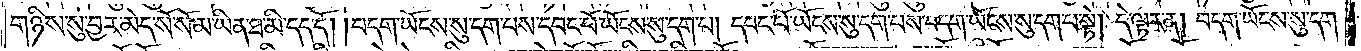གཉིས་སུ་བྱར་མེད་སོ་སོ་མ་ཡིན་ཐ་མི་དད་དོ། །བདག་ཡོངས་སུ་དག་པས་དབང་པོ་ཡོངས་སུ་དག་པ། དབང་པོ་ཡོངས་སུ་དག་པས་བདག་ཡོངས་སུ་དག་པ་སྟེ། དེ་ལྟར་ན། བདག་ཡོངས་སུ་དག་
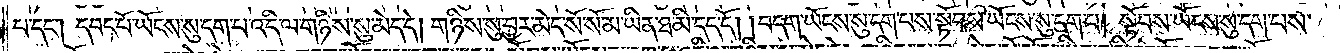པ་དང༌། དབང་པོ་ཡོངས་སུ་དག་པ་འདི་ལ་གཉིས་སུ་མེད་དེ། གཉིས་སུ་བྱར་མེད་སོ་སོ་མ་ཡིན་ཐ་མི་དད་དོ། །བདག་ཡོངས་སུ་དག་པས་སྟོབས་ཡོངས་སུ་དག་པ། སྟོབས་ཡོངས་སུ་དག་པས་
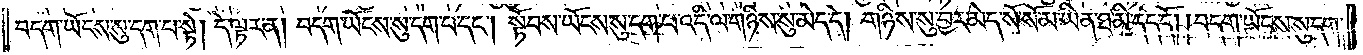བདག་ཡོངས་སུ་དག་པ་སྟེ། དེ་ལྟར་ན། བདག་ཡོངས་སུ་དག་པ་དང༌། སྟོབས་ཡོངས་སུ་དག་པ་འདི་ལ་གཉིས་སུ་མེད་དེ། གཉིས་སུ་བྱར་མེད་སོ་སོ་མ་ཡིན་ཐ་མི་དད་དོ། །བདག་ཡོངས་སུ་དག་
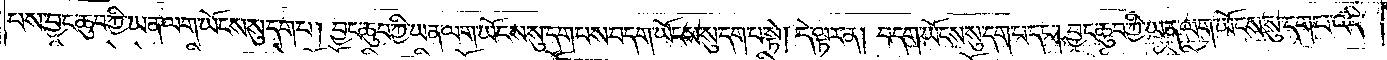པས་བྱང་ཆུབ་ཀྱི་ཡན་ལག་ཡོངས་སུ་དག་པ། བྱང་ཆུབ་ཀྱི་ཡན་ལག་ཡོངས་སུ་དག་པས་བདག་ཡོངས་སུ་དག་པ་སྟེ། དེ་ལྟར་ན། བདག་ཡོངས་སུ་དག་པ་དང༌། བྱང་ཆུབ་ཀྱི་ཡན་ལག་ཡོངས་སུ་དག་པ་འདི་
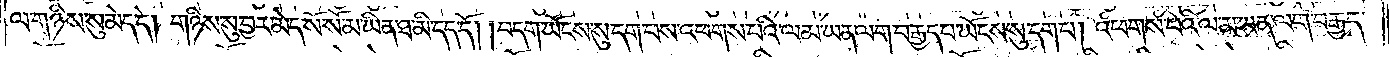ལ་གཉིས་སུ་མེད་དེ། གཉིས་སུ་བྱར་མེད་སོ་སོ་མ་ཡིན་ཐ་མི་དད་དོ། །བདག་ཡོངས་སུ་དག་པས་འཕགས་པའི་ལམ་ཡན་ལག་བརྒྱད་པ་ཡོངས་སུ་དག་པ། འཕགས་པའི་ལམ་ཡན་ལག་བརྒྱད་
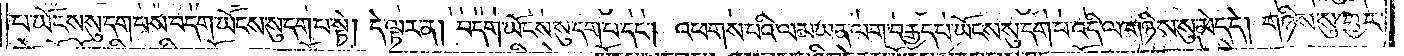པ་ཡོངས་སུ་དག་པས་བདག་ཡོངས་སུ་དག་པ་སྟེ། དེ་ལྟར་ན། བདག་ཡོངས་སུ་དག་པ་དང༌། འཕགས་པའི་ལམ་ཡན་ལག་བརྒྱད་པ་ཡོངས་སུ་དག་པ་འདི་ལ་གཉིས་སུ་མེད་དེ། གཉིས་སུ་བྱར་
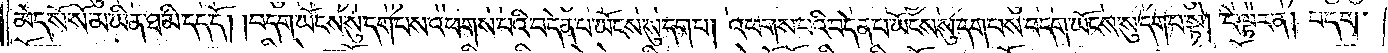མེད་སོ་སོ་མ་ཡིན་ཐ་མི་དད་དོ། །བདག་ཡོངས་སུ་དག་པས་འཕགས་པའི་བདེན་པ་ཡོངས་སུ་དག་པ། འཕགས་པའི་བདེན་པ་ཡོངས་སུ་དག་པས་བདག་ཡོངས་སུ་དག་པ་སྟེ། དེ་ལྟར་ན། བདག་
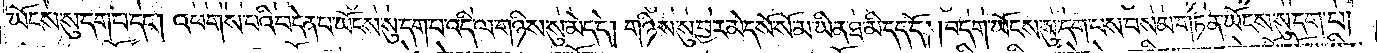ཡོངས་སུ་དག་པ་དང༌། འཕགས་པའི་བདེན་པ་ཡོངས་སུ་དག་པ་འདི་ལ་གཉིས་སུ་མེད་དེ། གཉིས་སུ་བྱར་མེད་སོ་སོ་མ་ཡིན་ཐ་མི་དད་དོ། །བདག་ཡོངས་སུ་དག་པས་བསམ་གཏན་ཡོངས་སུ་དག་པ།
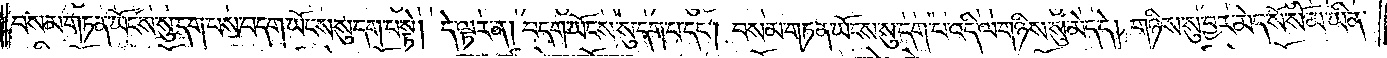བསམ་གཏན་ཡོངས་སུ་དག་པས་བདག་ཡོངས་སུ་དག་པ་སྟེ། དེ་ལྟར་ན། བདག་ཡོངས་སུ་དག་པ་དང༌། བསམ་གཏན་ཡོངས་སུ་དག་པ་འདི་ལ་གཉིས་སུ་མེད་དེ། གཉིས་སུ་བྱར་མེད་སོ་སོ་མ་ཡིན་
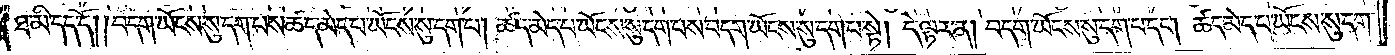ཐ་མི་དད་དོ། །བདག་ཡོངས་སུ་དག་པས་ཚད་མེད་པ་ཡོངས་སུ་དག་པ། ཚད་མེད་པ་ཡོངས་སུ་དག་པས་བདག་ཡོངས་སུ་དག་པ་སྟེ། དེ་ལྟར་ན། བདག་ཡོངས་སུ་དག་པ་དང༌། ཚད་མེད་པ་ཡོངས་སུ་དག་
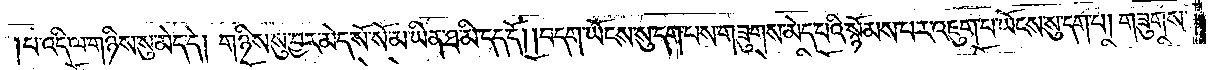པ་འདི་ལ་གཉིས་སུ་མེད་དེ། གཉིས་སུ་བྱར་མེད་སོ་སོ་མ་ཡིན་པ་ཐ་མི་དད་དོ། །བདག་ཡོངས་སུ་དག་པས་གཟུགས་མེད་པའི་སྙོམས་པར་འཇུག་པ་ཡོངས་སུ་དག་པ། གཟུགས་
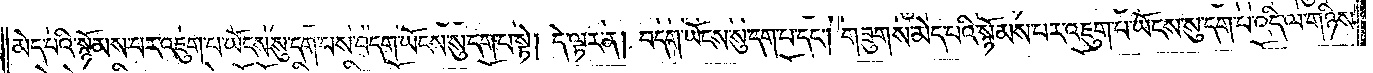མེད་པའི་སྙོམས་པར་འཇུག་པ་ཡོངས་སུ་དག་པས་བདག་ཡོངས་སུ་དག་པ་སྟེ། དེ་ལྟར་ན། བདག་ཡོངས་སུ་དག་པ་དང༌། གཟུགས་མེད་པའི་སྙོམས་པར་འཇུག་པ་ཡོངས་སུ་དག་པ་འདི་ལ་གཉིས་
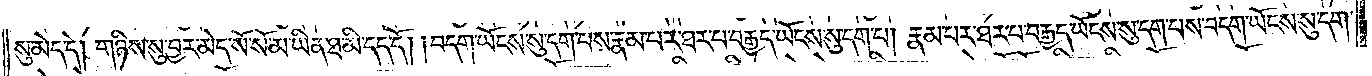སུ་མེད་དེ། གཉིས་སུ་བྱར་མེད་སོ་སོ་མ་ཡིན་ཐ་མི་དད་དོ། །བདག་ཡོངས་སུ་དག་པས་རྣམ་པར་ཐར་པ་བརྒྱད་ཡོངས་སུ་དག་པ། རྣམ་པར་ཐར་པ་བརྒྱད་ཡོངས་སུ་དག་པས་བདག་ཡོངས་སུ་དག་
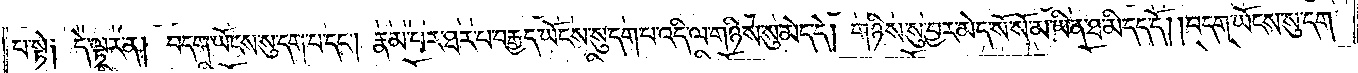པ་སྟེ༑ དེ་ལྟར་ན། བདག་ཡོངས་སུ་དག་པ་དང༌། རྣམ་པར་ཐར་པ་བརྒྱད་ཡོངས་སུ་དག་པ་འདི་ལ་གཉིས་སུ་མེད་དེ། གཉིས་སུ་བྱར་མེད་སོ་སོ་མ་ཡིན་ཐ་མི་དད་དོ། །བདག་ཡོངས་སུ་དག་
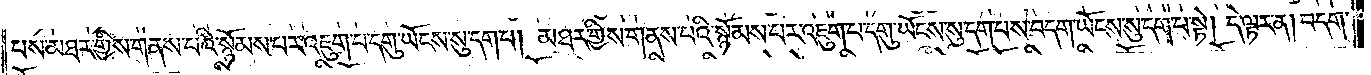པས་མཐར་གྱིས་གནས་པའི་སྙོམས་པར་འཇུག་པ་དགུ་ཡོངས་སུ་དག་པ། མཐར་གྱིས་གནས་པའི་སྙོམས་པར་འཇུག་པ་དགུ་ཡོངས་སུ་དག་པས་བདག་ཡོངས་སུ་དག་པ་སྟེ། དེ་ལྟར་ན། བདག་
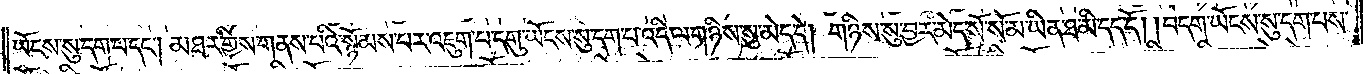ཡོངས་སུ་དག་པ་དང༌། མཐར་གྱིས་གནས་པའི་སྙོམས་པར་འཇུག་པ་དགུ་ཡོངས་སུ་དག་པ་འདི་ལ་གཉིས་སུ་མེད་དེ། གཉིས་སུ་བྱར་མེད་སོ་སོ་མ་ཡིན་ཐ་མི་དད་དོ། །བདག་ཡོངས་སུ་དག་པས་
